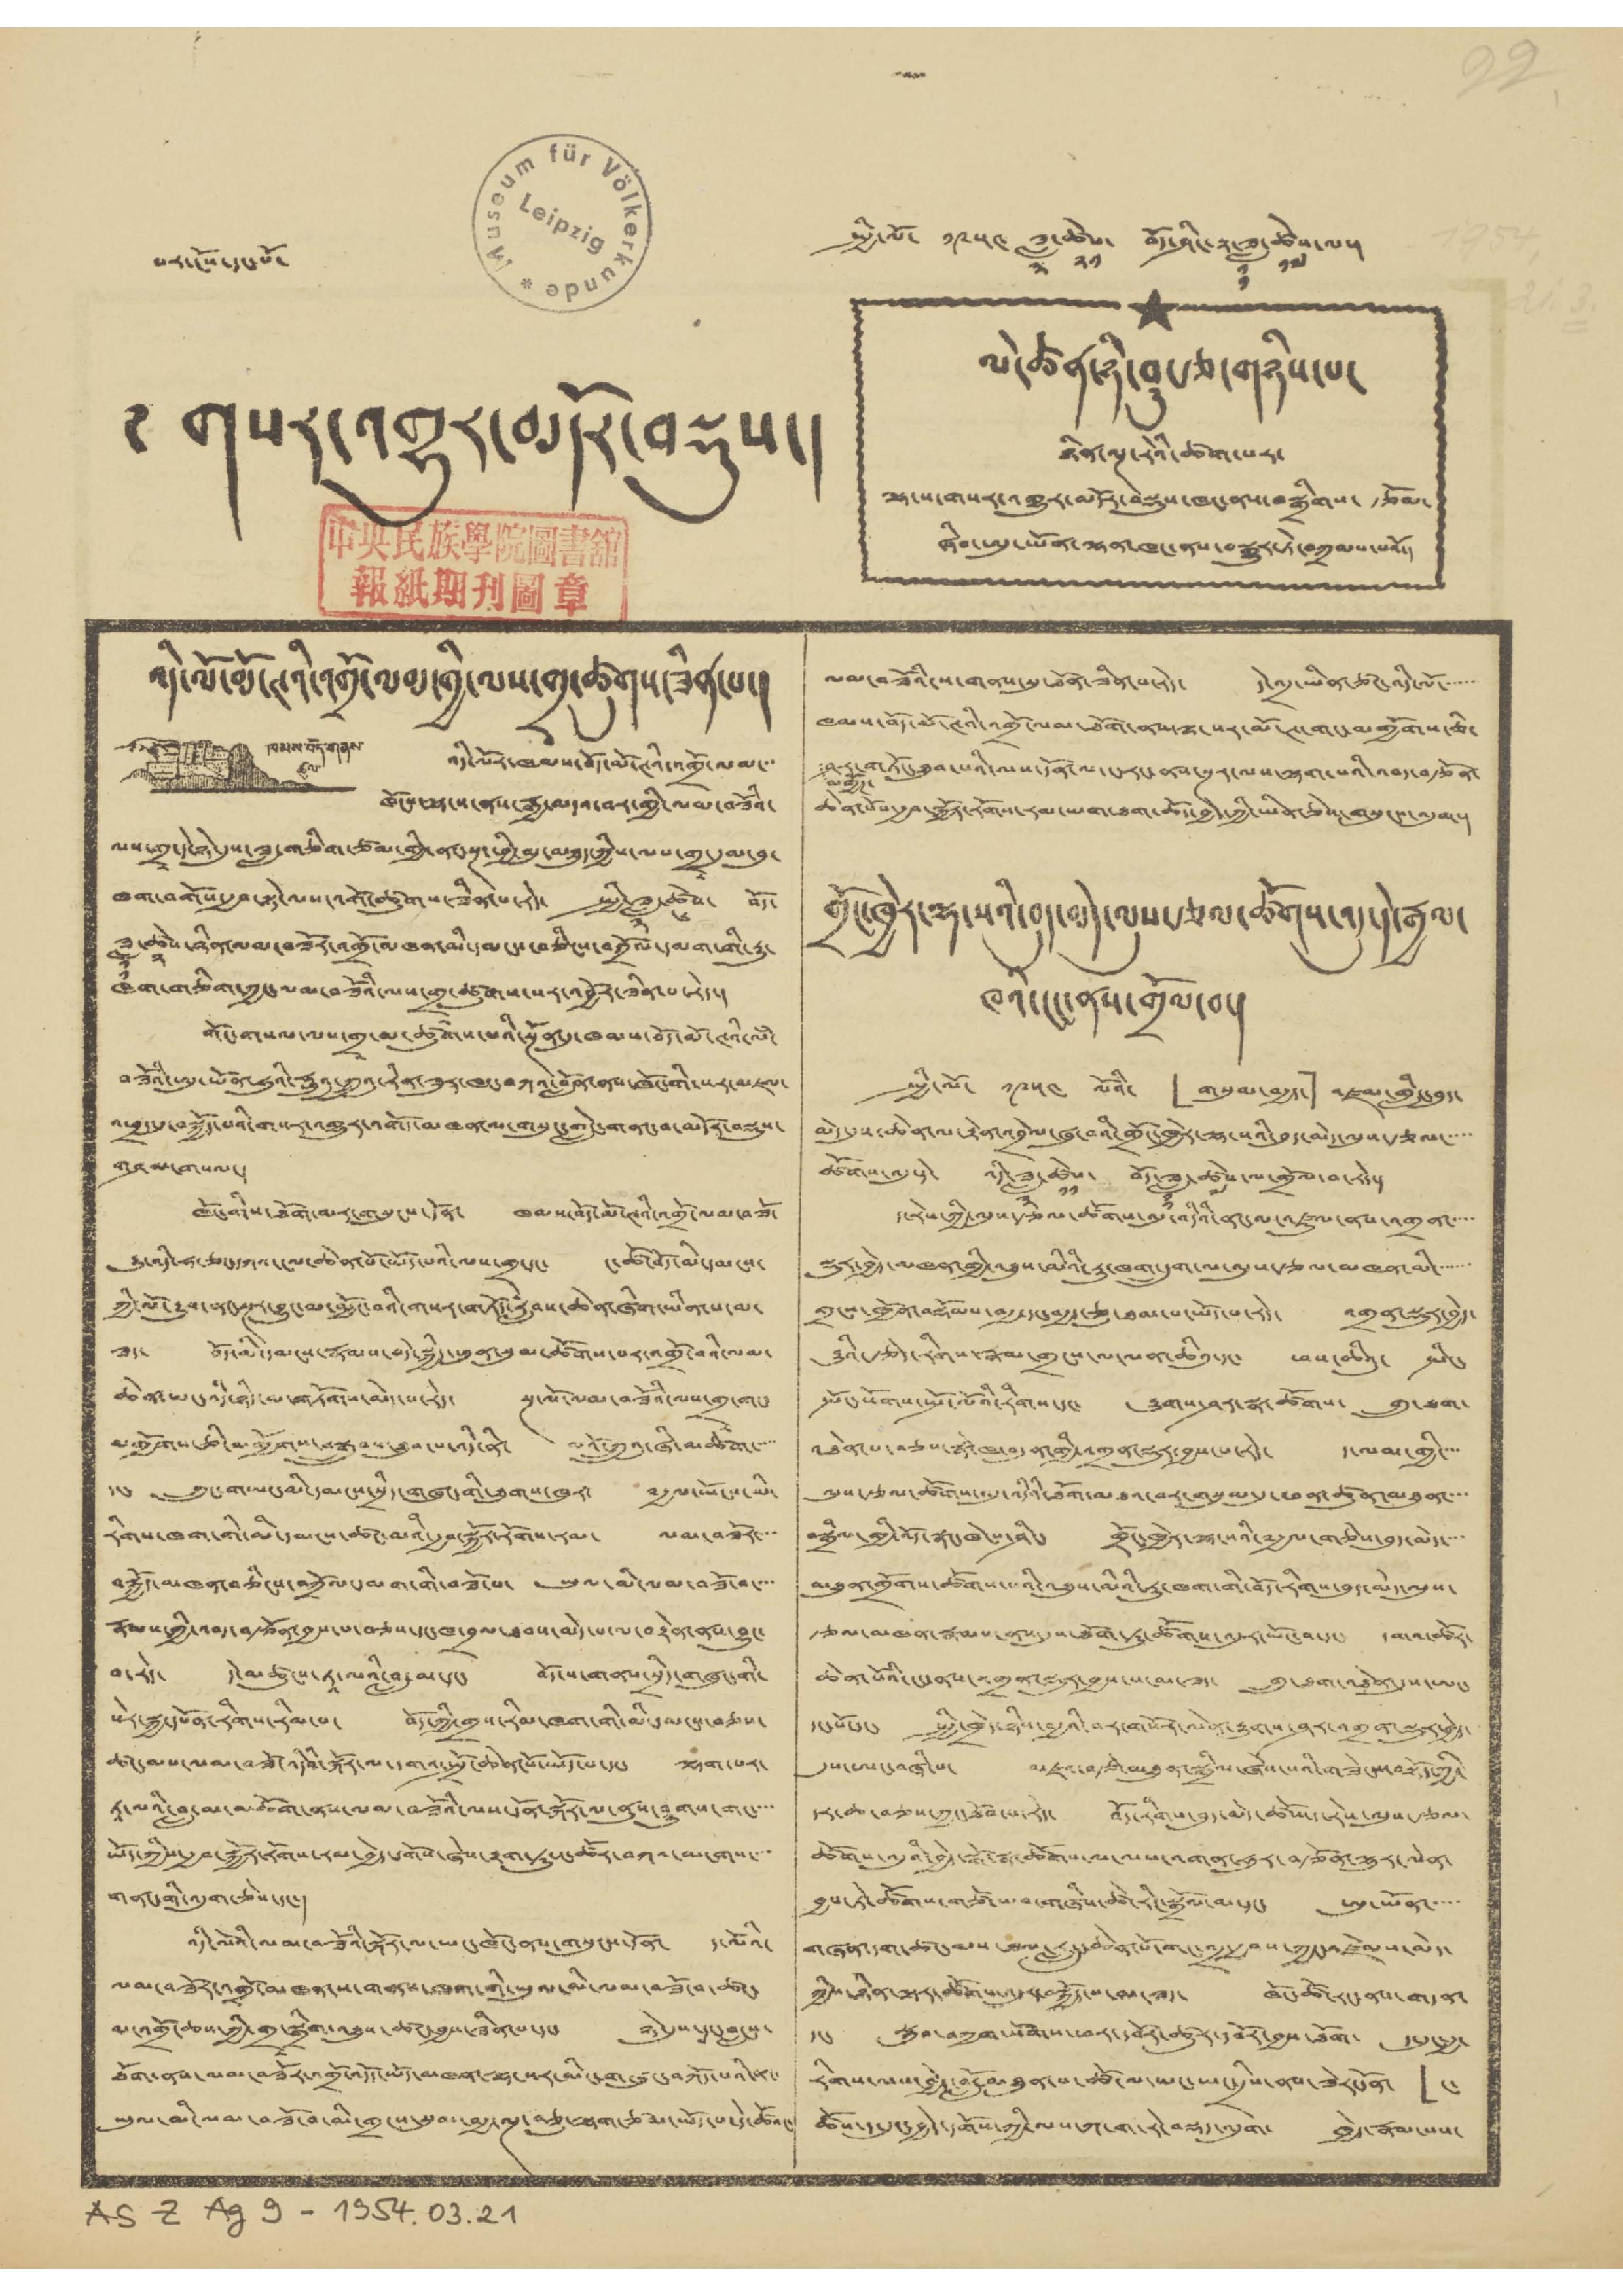པར་ངོས་དང་པོ་ སྤྱི་ལོ་ ༡༩༥༤ ཟླ་
༣
ཚེས་
༢༡
བོད་ཤིང་རྟ་ཟླ་
༡༡
ཚེས་
༡༧
ལ་།
གསར་འགྱུར་མདོར་བསྡུས་།
ལེ་མཚན་ཉི་ཤུ་རྩ་གཉིས་པ་
ཉིན་ལྔ་རེའི་ཚག་པར་
ལྷ་ས་གསར་འགྱུར་མདོར་བསྡུས་ཁང་ནས་བསྒྲིགས་ རྩོམ་
ཞིབ་ཨུ་ཡོན་ལྷན་ཁང་ནས་བསྒྱུར་ཏེ་བཀྲམས་པའོ་།
འདི་ལོ་མོ་ཊའི་འགྲོ་ལམ་གྱི་ལས་གྲྭ་ཚུགས་ཟིན་པ་།
ཁམས་བོད་གནས་
ཚུལ་
འདི་ལོར་ཁམས་བོད་མོ་ཊའི་འགྲོ་ལམ་་་
ཁོངས་ལྷ་ས་ནས་རྒྱ་མདའ་བར་གྱི་ལམ་བཟོའི་
ལས་གྲྭ་དེ་ཉེ་དུས་ཟླ་གཅིག་ཙམ་གྱི་ནང་སྔ་ཕྱི་མུ་མཐུད་ཀྱིས་ལས་གྲྭ་དུམ་བུ་
ཁག་བགོས་རྒྱབ་སྟེ་ལས་འགོ་ཚུགས་ཟིན་པ་རེད་ སྤྱི་ཟླ་
༣
ཚེས་
༦
བོད་
ཟླ་
༡༡
ཚེས་
༢
ཉིན་ལམ་བཟོར་འགྲོ་མཁན་མི་དམངས་བཅིངས་བཀྲོལ་དམག་གི་རུ་
ཁག་གཅིག་ཀྱང་ལམ་བཟོའི་ལས་གྲ་ཚུགས་སར་འབྱོར་ཟིན་པ་རེད་།
གོང་གསལ་ལས་གྲྭ་མ་ཚུགས་པའི་སྔོན་དུ་ཁམས་བོད་མོ་ཊའི་ལཾ་
བཟོའི་ཨུ་ཡོན་ཧུའི་ཧྥུའུ་ཀྲུའུ་རིན་ཟུར་ཁང་བཀའ་བློན་ནས་ཁོང་གི་སར་མཇལ་
འཕྲད་དུ་བསྐྱོད་པའི་གསར་འགྱུར་འགོད་མཁན་ལ་གསུང་གླེང་གནང་བ་མདོར་བསྡུས་
གཤམ་གསལ་།
ཁོང་གིས་ཐོག་མར་གསུངས་དོན་ ཁམམས་བོད་མོ་ཊའི་འགྲོ་ལམ་བཟོ་
རྒྱུ་འདི་ཧ་ཅང་དཀའ་ངལ་ཆེན་པོ་ཡོད་པའི་ལས་གྲ་དང་ ང་ཚོ་བོད་མི་དམངས་
ཀྱི་ལོ་རྒྱུས་ནང་སྔར་བྱུང་མ་མྱོང་བའི་གསར་གཏོད་རླབས་ཆེན་ཞིག་ཡིན་པ་མ་
ཟད་ བོད་མི་དམངས་རྣམས་བདེ་སྐྱིད་ཕུན་སུམ་ཚོགས་པར་འགྲོ་བའི་ལམ་
ཆེན་ཡང་འདི་ཉིད་མ་གཏོགས་མེད་པ་རེད་ སྔ་ལོ་ལམ་བཟོའི་ལས་གྲྭ་གང་
མགྱོགས་ཅི་མགྱོགས་བསྒྲུབས་ཐུབ་པ་འདི་ནི་ མའོ་ཀྲུའུ་ཞི་མཆོག་་་་་
དང་ ཀྲུང་གཡང་མི་དམངས་སྲིད་གཞུང་གི་ཐུགས་ཁུར་ ༸རྒྱལ་ཡོངས་མི་
རིགས་ཁག་གི་མི་དམངས་ཚང་མའི་རྒྱབ་སྐྱོར་རོགས་རམ་ ལམ་བཟོར་་་་
བསྐྱོད་མཁན་བཅིངས་བཀྲོལ་མག་གི་བཟོ་པ་ ཡུལ་མི་ལམ་བཟོ་བ་་་་
རྣམས་ཀྱི་འབད་བརྩོན་བྱས་པ་བཅས་དང་ཁ་བྲལ་ཐབས་མེད་པ་ལ་བརྟེན་ནས་བྱུང་
བ་རེད་ དེ་མཚུངས་ཏཱ་ལའི་བླ་མ་དང་ བོད་ས་གནས་སྲིད་གཞུང་གི་
སེར་སྐྱ་དཔོན་རིགས་རིམ་པ་ བོད་ཀྱི་གྲས་རིམ་ཁག་གི་མི་དམངས་བཅས་
ཚང་མས་ལམ་བཟོ་འདིའི་སྐོར་ལ་དགའ་སྤྲོ་ཆེན་པོ་ཡོད་པ་དང་ ལྷག་པར་
ཏཱ་ལའི་བླ་མ་མཆོག་ནས་ལམ་བཟོའི་ལས་དོན་སྐོར་ལ་ནུས་ཤུགས་གང་་་་
ཡོད་ཀྱིས་རྒྱབ་སྐྱོར་རོགས་རམ་བྱེད་དགོས་ཞེས་རྟག་ཏུ་ང་ཚོར་བཀའ་མངགས་་་་
གནང་གི་འདུག་ཅེས་དང་།
འདི་ལོའི་ལམ་བཟོའི་སྐོར་ལ་ཡང་ཁོང་ནས་གསུངས་དོན་ ད་ལོའི་
ལམ་བཟོར་འགྲོ་མཁན་ས་གནས་ཁག་གི་ཡུལ་མི་ལམ་བཟོ་བ་ཚང་
མ་འགྲོ་ཆས་ཀྱི་གྲ་སྒྲིག་འཐུས་ཚང་བྱས་ཟིན་པ་དང་ ཉེ་དུས་དྭང་བླངས་
ཐོག་ནས་ལམ་བཟོར་འགྲོ་འདོད་ཡོད་མཁན་ལྷ་སར་མིང་གཞུང་བཀོད་པའི་ནང་
ཡུལ་མི་ལམ་བཟོ་བ་མི་གྲངས་སུམ་བརྒྱ་ལྔ་བཅུ་ལྷག་ཙམ་ཡོད་པ་དེ་ཚོའང་
ལམ་བཟོའི་ས་གནས་སུ་ཐོན་ཟིན་པ་རེད་ དེ་འདྲ་ཡིན་ཙང་འདི་ལོ་་་་་་
ཁམས་བོད་མོ་ཊའི་འགྲོ་ལམ་ཐོག་ནས་ལྷ་སར་མོ་ཊ་གང་མགྱོགས་ཅི་
མགྱོགས་
ཤར་གཏོང་ཐུབ་པའི་ལས་དོན་ལ་ང་རང་ནས་སྔར་ལས་ལྷག་པའི་འབད་བརྩོན་
ཆེན་པོས་རྒྱབ་སྐྱོར་རོགས་རམ་ཡག་ཐག་ཆོད་བྱེད་ཀྱི་ཡིན་ཅེས་གསུངས་འདུག་།
གྲོང་ཁྱེར་ལྷ་སའི་བུད་མེད་ལུས་རྩལ་ཚོགས་འདུ་དེ་རྒྱལ་
ཁའི་ངང་ནས་གྲོལ་བ་།
སྤྱི་ལོ་ ༡༩༥༤ ལོའི་「གསུམ་བརྒྱད་」འཛམ་གླིང་བུད་
མེད་དུས་ཆེན་ལ་རྟེན་འབྲེལ་ཞུ་བའི་གྲོང་ཁྱེར་ལྷ་སའི་བུད་མེད་ལུས་རྩལ་་་་་
ཚོགས་འདུ་དེ་ འདི་ཟླ་
༣
ཚེས་
༡༡
བོད་ཟླ་
༡༡
ཚེས་
༧
ལ་གྲོལ་བ་རེད་།
ད་རེས་ཀྱི་ལུས་རྩལ་ཚོགས་འདུ་འདིའི་ནང་ལ་འཛུལ་ནས་འགྲན་་་་་
སྡུར་བྱེད་མཁན་གྱི་འཐུས་མིའི་རུ་ཁག་དྲུག་ལ་ལུས་རྩལ་མཁན་མི་་་་་་
གྲངས་ཁྱོན་བསྡོམས་བརྒྱ་དང་བརྒྱ་ཅུ་ཐམ་པ་ཡོད་པ་རེད་ འགྲན་སྡུར་བྱེད་
རྒྱུའི་རྩེ་རིགས་རྣམ་གྲངས་ལ་ལན་ཆིའུ་དང་ ཕས་ཆིའུ་ སྤིང་
སྤོང་སོགས་སྤོ་ལོའི་རིགས་དང་ རྒྱུགས་ཤར་སྣ་ཚོགས་ གྲུ་ཐག་
འཐེན་པ་བཅས་སྣེ་ཁ་བདུན་གྱི་འགྲན་སྡུར་བྱས་པ་རེད་ ད་ལམ་གྱི་་་་
ལུས་རྩལ་ཚོགས་འདུ་འདིའི་ཐོག་མཐའ་བར་གསུམ་དུ་ཕན་ཚུན་མཐུན་་་་
བསྒྲིལ་གྱི་འོད་སྣང་ཁེངས་ཤིང་ གྲོང་ཁྱེར་ལྷ་སའི་༸རྒྱལ་གཅེས་བུད་མེད་་་་
མཐུན་གྲོགས་ཚོགས་པའི་འཐུས་མིའི་རུ་ཁག་གི་བོད་རིགས་བུད་མེད་ལུས་
རྩལ་མཁན་རྣམས་ནས་དུས་ཐོག་ཏུ་ཚོགས་འདུར་ཡོང་བ་དང་ དགའ་ཚོར་
ཆེན་པོའི་ངང་ནས་འགྲན་སྡུར་བྱས་པ་མ་ཟད་ གྲུ་ཐག་འཐེན་དུས་ཨང་
དང་པོ་དང་ སྤྱི་ཁྲེད་ཉིས་བརྒྱའི་བར་གསོར་ལེན་རྒྱུགས་ཤར་འགྲན་སྡུར་བྱེད་
དུས་ཨང་བཞི་པ་ མཛའ་རྩེ་མཐུན་སྒྲིལ་ཞེས་པའི་གཟེངས་བསྟོད་ཀྱི་
དར་ཆ་བཅས་ཀྱང་ཐོབ་པ་རེད་ བོད་རིགས་བུད་མེད་ཚོས་ད་རེས་ལུས་རྩལ་
ཚོགས་འདུའི་བྱེད་སྒོ་སྣ་ཚོགས་ལ་ལས་འགན་ཧུར་བརྩོན་ལྷུར་ལེན་
བྱས་ཏེ་ཚོགས་གཙོ་བ་གཞིས་ཚེ་རིང་སྒྲོལ་མ་དང་ ཨུ་ཡོན་་་་་
གཞན་དག་ཚང་མས་ཐལ་རླུང་ཆེན་པོ་གང་འདྲ་རྒྱབས་ཀྱང་འཛེམས་མེད་
ཀྱིས་ཉིན་ལྟར་ཚོགས་འདུར་བསྐྱོད་པ་མ་ཟད་ ཁོང་ཚོར་རང་ནས་གདན་
དང་ རྐུབ་བཀྱག་སོགས་ཕར་དབོར་ཚུར་དབོར་བྱས་ཐོག་ ད་དུང་རྒྱ་
རིགས་ལས་བྱེད་བློ་མཐུན་པ་ཚོ་ལ་ཡང་ཡང་དྲིས་ནས་ཟེར་དོན་ 「ང་
ཚོས་ད་དུང་བྱེད་དགོས་ཀྱི་ལས་ཀ་ག་རེ་བསྡད་འདུག་ ཁྱེད་རྣམ་པས་
